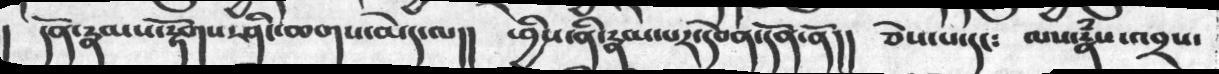། དོན་རྣམས་རྟོགས་ཤིང་ཆགས་མེད་ལ།། ཕྱིས་ནི་རྣམ་པར་དབེན་དོན་ནོ།། ཅེས་པ་དང༴ ལས་རྣཾས་འབྲས་
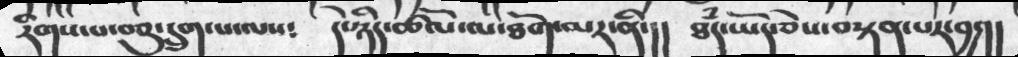རིགས་པ་བཅུ་དྲུག་པ་ལས༴  དེ་ཉིད་ཚོལ་མ་ཐོག་མར་ནི་།།  ཐཾད་ཡོད་ཅེས་བསྟན་པར་བྱ་།།
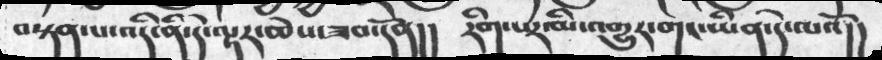བསྟན་པ་འདི་ནི་དེ་ལྟར་ཆེས་ཟབ་དོན།། རིག་པར་མི་འགྱུར་གང་ཡིན་དེ་ལའོ།།
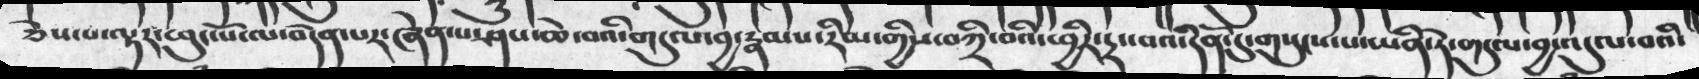ཅེས་པ་ལྟར་ཕུང་པོ་ལ་བདེན་པར་ཞེན་པ་ཤས་ཆེ་བའི་གདུལ་བྱ་རྣམས་རིམ་གྱིས་བཀྲི་བའི་ཕྱིར་དྲང་བའི་དོན་དུ་གསུངས་པ་ཡིན་ཏེ་གདུལ་བྱ་འདུལ་བའི་
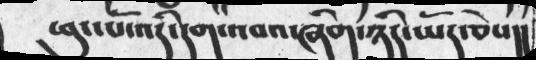ཕུང་པོ་འདི་དག་འབའ་ཞིག་ཉིད་ཡོད་ཅེས།།
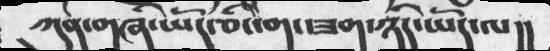ཀུན་གཞི་ཡོད་ཅིང་གང་ཟག་ཉིད་ཡོད་ལ།།
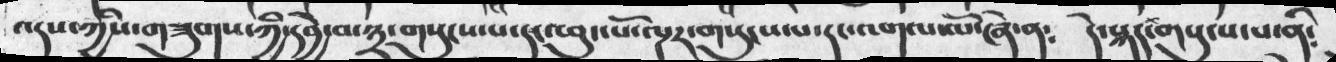འདས་ཀྱིས་གཟུགས་ཀྱི་དབྱེ་བ་༣་གསུངས་པ་དང་ཕུང་པོ་ལྔར་གསུངས་པ་དང་འགལ་ལོ་ཞེ་ན༴ དེ་སྐད་གསུངས་པ་ནི༴
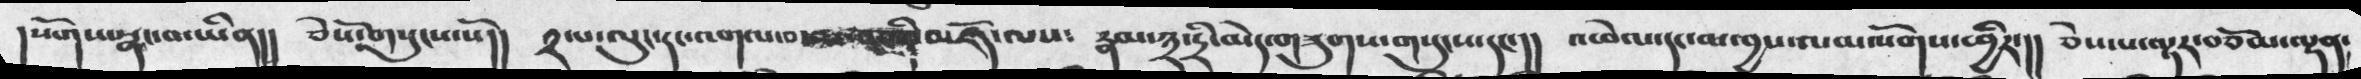།སོགས་སྣང་བ་ཡིན།།  ཅེསོ་གསུངས་སོ།།  ༢་པ་ལུང་དང་འགལ་བ་      ནི་མཛོད་ལས༴  རྣམ་༣་དྲི་མེད་གཟུགས་གསུངས་དང་།།  འཕེལ་དང་མ་བྱས་ལམ་སོགས་པྱིར་།།     ཅེས་པ་ལྟར་བཅོམ་ལྡན༴
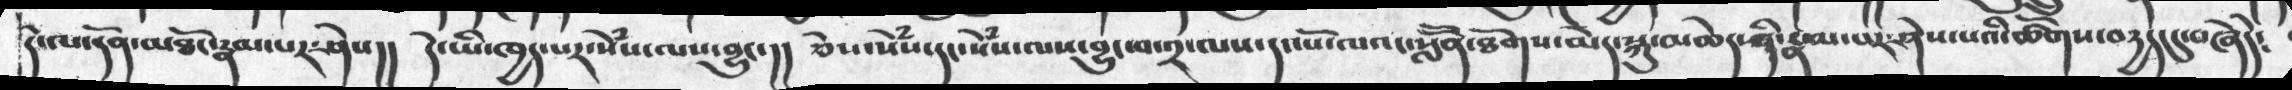དེ་ལ་དོན་མཐོང་རྣམ་པར་ཤེས།། དེ་ཡི་ཁྱད་པར་སེཾས་ལས་བྱུང་།། ཅེས་སེཾས་དང་སེཾས་ལས་བྱུང་བ་༢་ལས་དང་ོཔོ་ལའང་སློོན་ཐོགས་མེད་སྐུ་མཆེད་ནི་རྣམ་པར་ཤེས་པའི་ཚོགས་བདྱད་དུ་བཞེདེ༴
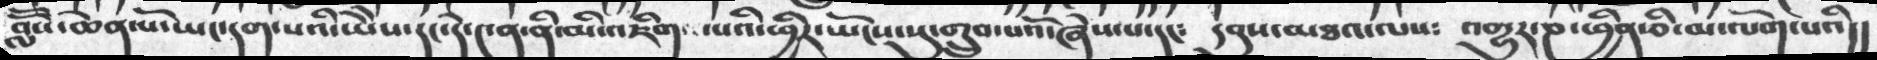བློོས་ཆེན་པོ་ཡང་དག་པའི་ཡཻས་དང་དེ་༤ན་ནི་མི་འཇིག་པའི་ཕྱིར་ཡོངས་སུ་གྲུབ་པའོ་ཞེས་པ་དང༴ དབུས་མཐའ་ལས༴ འགྱུར་ཎ་ཕྱིན་ཅི་མ་ལོག་པའི།།
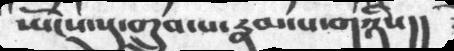ཡོངས་སུ་གྲུབ་པ་རྣམ་པ་གཉིས།།
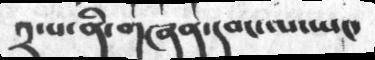༢་པ་ནི་གཞན་དབང་ལ་ཡང་
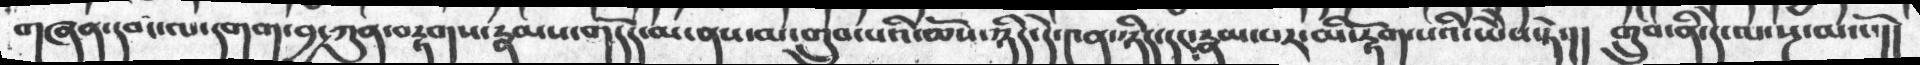གཞན་དབང་ལ་དགག་བྱ་ཀུན་བརྟགས་རྣམས་གདོད་མ་ནས་མ་གྲུབ་པའི་ཆོས་ཉིད་དེ་༤ན་ཉིད་དང་རྣམ་པར་མི་རྟོགས་པའི་ཡཻས་ཏེ་།། གྲུབ་ནི་དེ་ལ་སྔ་མ་པོ།།
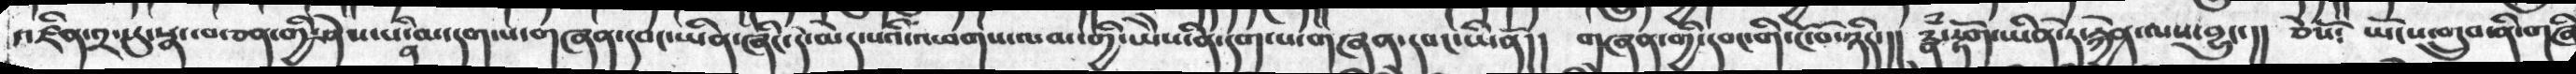འཛིན་༢་སུ་སྣང་བ་ཅན་གྱི་ཤེས་པའི་མ་དག་པ་གཞན་དབང་ཡིན་ཞིང་དེ་མེད་པའི་འཕགས་ལམ་གྱི་ཡེེས་ནི་དག་པ་གཞན་དབང་ཡིནོ།།  གཞན་གྱི་དབང་གི་ངོ་བོ་ཉིད་།།  རྣཾ་རྟོག་ཡིན་ཏེ་རྐྱེན་ལས་བྱུང་།།   ཅེསོ༴  ཡོངས་གྲུབ་ནི་གཞི
